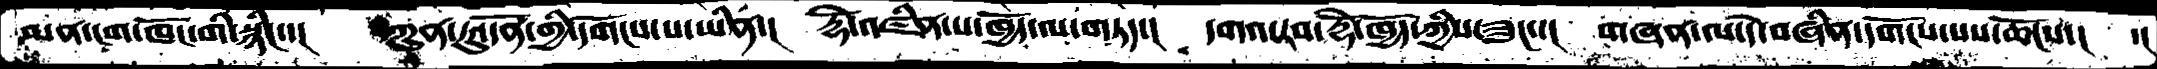མན་ངག་ཁོང་གི་སྙིང་་།  ཀུན་ཏུ་དོན་གྱི་དགོངས་པ་ཡིན་།  རྡོེ་འཛིན་པ་ཁྱོད་ལ་གཏད་།  དགའ་རབ་རྡོེ་ཁྱོད་ཀྱིས་ཟུངས་།  གཞན་ལ་དེ་བཞིན་དགོངས་པས་ཆོངས་།  ་།
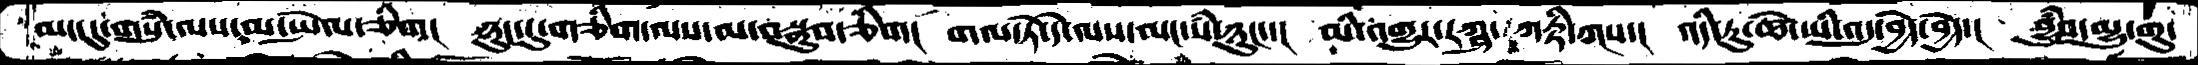མང་དུ་གསུཾ་ལས་མ་སྤེལ་ཅིག།  ཉུང་ངུ་གཅིག་ལས་མ་བསྣུབ་ཅིག།  གལ་ཏེ་དེ་ལས་མང་སཾ་ཉུང་་།  མི་འགྱུར་རཀྴ་ཀརྟི་ཀས་།  འདི་རུ་ཚེ་ཡི་འདུ་བྱེད་བྱེད་།  བྱུཾབ་མྱུ་གུ་
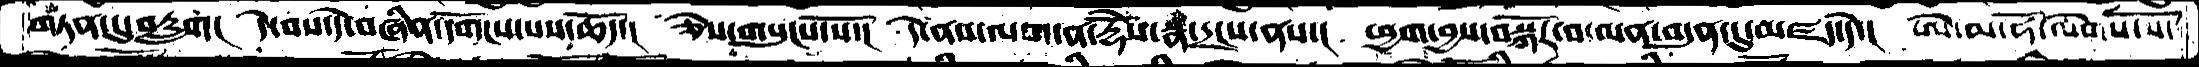གཏན་དུ་བརླག།  དེ་བས་དེ་བཞིན་དགོངས་པས་ཆོད་།  ཅེས་གསུངས་སོ་།  དེ་ནས་ལག་ན་རྡོེས་རྣཾ་དྲངས་ནས་།  ཕྱག་བྱས་བསྐོར་བ་ལན་བདུན་དུ་མཛད་དེ་།  ཨེ་མ་ཧོ་ལེགས་སོ་
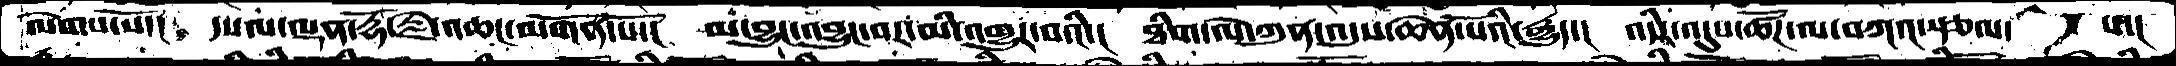ལེགས་སོ་།   དཔལ་ལྡན་རྡོ་རྗེ་འཆང་མགོན་པོ་།  མ་བྱུང་འབྱུང་བར་མི་འགྱུར་བའི་།  ཐིག་ལེ་ཀུན་འདུས་ཆེན་པོའི་རྒྱུད་།  འདིར་འདུས་ཚོཌ་ལ་བཀའ་སྩལ་  པ་ང
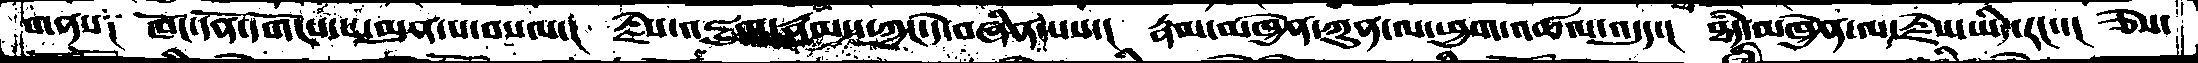གནས༑  ཁོང་དོན་དགོངས་པ་མུན་པ་བསལ་།  རྗེས་འཇུག་རྣམས་ཀྱང་དེ་བཞིན་པས་།  རྣམ་མཁྱེན་ཀུན་ལ་ཕྱག་འཚལ་འདུད་།  ཐཾད་མཁྱེན་ལ་རྗེས་ཡིད་རང་་།  ཅེས་
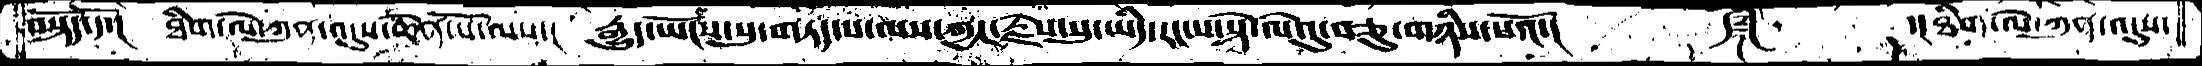བསྟོད་དོ་། ཐིག་ལེ་ཀུན་འདུས་ཆེན་པོ་ལས་། རྒྱུད་ཡོངས་སུ་གཏད་པ་ལས་ཀྱང་རྗེས་སུ་ཡིད་རང་པ་སྟེ་ལེའུ་བཅུ་གཉིས་པའོ་།    ༼༈༽  ་།ཐིག་ལེ་ཀུན་འདུས་
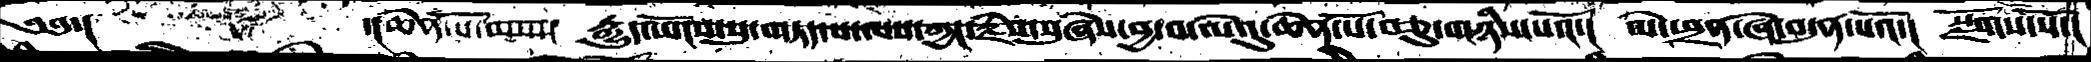༄༅་།   ་།ཆེན་པོ་ལས་། རྒྱུད་ཡོངས་སུ་གཏད་པ་ལས་ཀྱང་རྗེས་སུ་ཞེས་བྱ་བ་ལེའུ་ཆེན་པོ་བཅུ་གཉིས་པའོ་། ལེ་ཕྲན་ཞེ་བདུན་པའོ་། སྫོགས་སོ་།
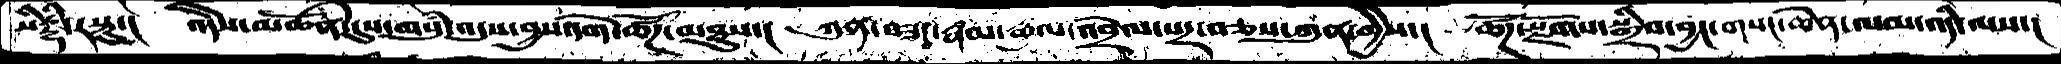སིདྡྷི་རསྟུ་།  འདིས་མཚོན་དུས་གསུཾ་འདུས་བྱས་དགེ་ཚོཌ་མཐུས་།  ཀུན་བཟང་རྣམ་རྒྱལ་འབྲེལ་པར་བཅས་ཀུན་གྱིས་།  ཚོཌ་སྫོགས་སྒྲིབ་བྱང་གསང་ཆེན་ལམ་འདི་ལས་།
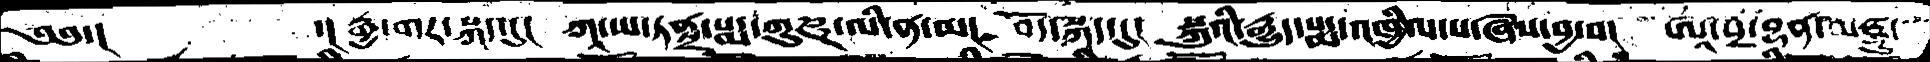༄༅་།          ་།རྒྱ་གར་སྐད་དུ།  ཀཱ་ཡ་ཏནྟྲ་པདྨ་གུཎྜ་ལི་ན་མ།  བོད་སྐད་དུ།  སྐུའི་རྒྱུད་པདྨ་འཁྱིལ་པ་ཞེས་བྱ་བ། ཨཱོྂ་པྲ་བྷན་མཛཱུ་
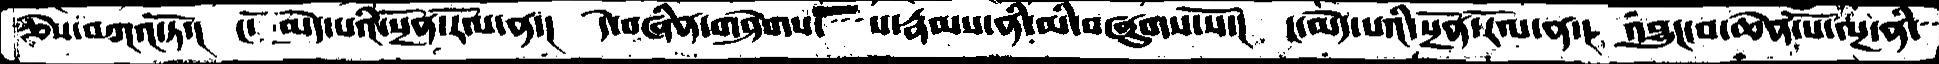ཅེས་བཀའ་ཏོ་།  ང་མེད་པའི་སྔོན་རོལ་ན་།  དེ་བཞིན་གཤེགས་་་པ་རྣམས་ནི་མི་བཞུགས་སོ་།  ང་མེད་པའི་སྔོན་རོལ་ན་། འབྱུང་བ་ཆེན་པོ་ལྔ་ནི་་
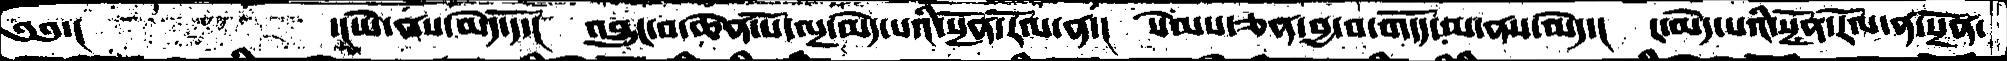༄༅་།        ་།ཡེ་ནས་མེད་དོ་།  འབྱུང་བ་ཆེན་པོ་ལྔ་མེད་པའི་སྔོན་རོལ་ན་།  སེམས་ཅན་བྱ་བ་གདོད་མ་ནས་མེད་།  ང་མེད་པའི་སྔོན་རོལ་ན་སྔོན་
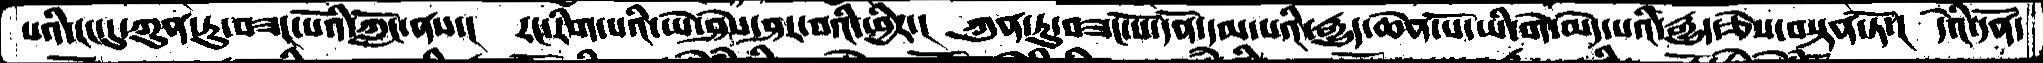པའི་ངང་དུ་ཀུན་ཏུ་བཟང་པོའི་ཀློང་ནས་།  རང་རིག་པའི་ཡེ་ཤེས་ཤར་བའི་ཕྱིར་།  ཀུན་ཏུ་བཟང་པོ་དོན་དམ་པའི་རྒྱུད་ཆེན་པོ་ཡི་གེ་མེད་པའི་རྒྱུད་ཅེས་བསྟན་ཏོ་།  དེའི་དོན་
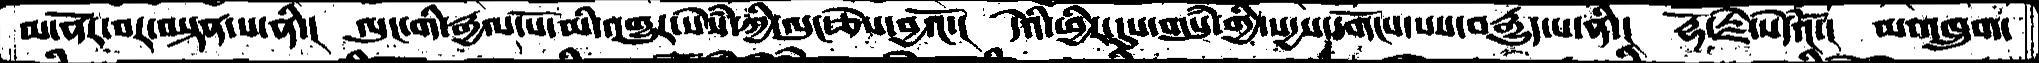མ་ནོར་བར་བསྟན་པ་ནི་།  ལུང་གི་རྒྱལ་པོ་མི་འགྱུར་སེཾས་ཀྱི་ལུང་ཅེས་བྱའོ་།  དེའི་ཕྱིར་དུས་གསུཾ་གྱི་སདྱས་དགོངས་པས་བརྒྱུད་པ་ནི་།  རྡོ་རྗེ་སེཾདའོ་།  མ་འཁྲུག་
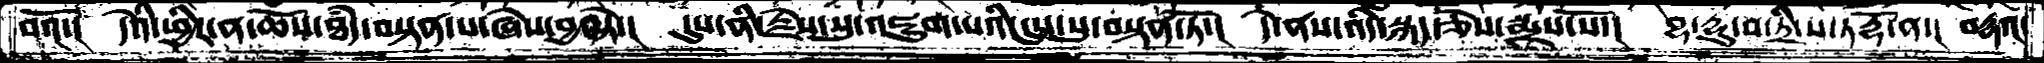བའོ་།  དེའི་ཕྱིར་ན་ཆོས་ཐཾད་བསྟན་པ་ཞེས་བྱ་ཏེ་།  དུས་ནི་རྗེས་སུ་འཇུག་པའི་དུས་སུ་བསྟན་ཏོ་།  དེ་ནས་འདི་སྐད་ཅེས་སྨྲས་སོ་། བྷ་དྷུ་བ་ཏྲི་ས་ཏ་དྷོ་ན་། བདྷའ་
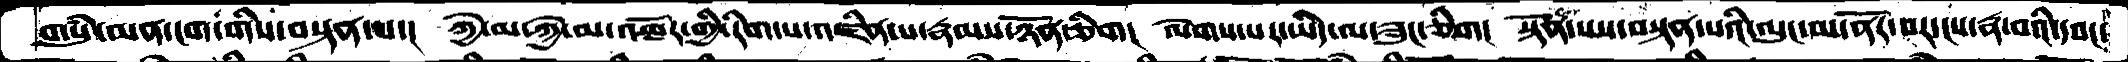གསུཾ་མན་ངག་གིས་བསྟན་པ་།  ཀྱེ་མ་ཀྱེ་མ་འཁོར་གྱི་རིག་པ་འཛིན་པ་རྣམས་ཉོན་ཅིག།  ལེགས་པར་ཡིད་ལ་ཟུང་ཅིག།  སྟོན་པས་བསྟན་པའི་ལུང་མ་ནོར་བར་ངས་རྣ་བའི་དབང་
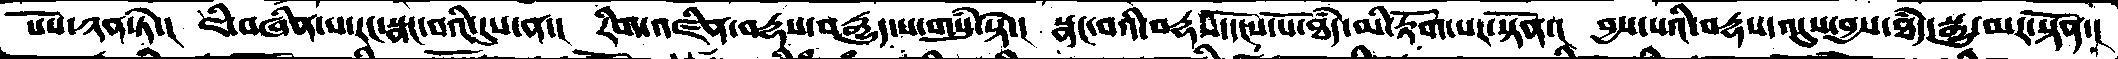པོས་ཉན་ཏེ་།  ཇི་བཞིན་པ་རང་སྣང་བའི་དུས་ན་།  རིག་འཛིན་བརྡས་བརྒྱུད་པ་གསུཾ་སྟེ་།  སྣང་བའི་བརྡས་དངོས་པོ་ཐཾད་མི་རྟོག་པར་སྟོན་།  བྱས་པའི་བརྡས་འདུས་བྱས་ཐཾད་སྒྱུ་མར་སྟོན་།
